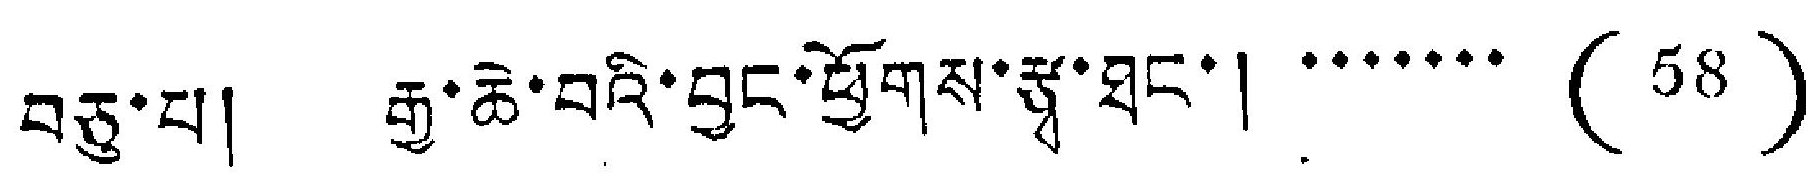བཅུ་པ། རྒྱ་ཆེ་བའི་བྱང་ཕྱོགས་རྩྭ་ཐང་། …… (58)
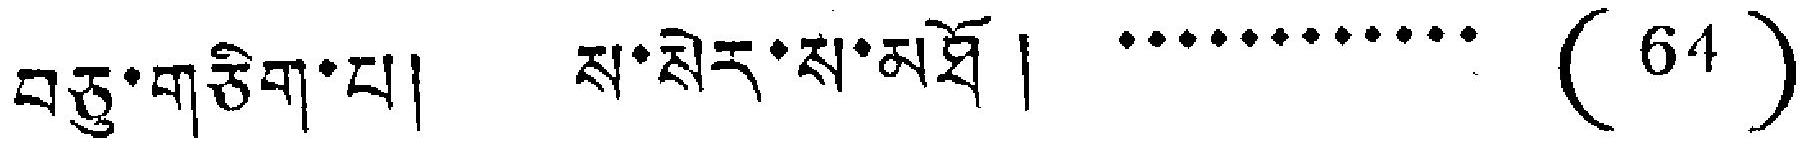བཅུ་གཅིག་པ། ས་སེར་ས་མཐོ། ………… (64)
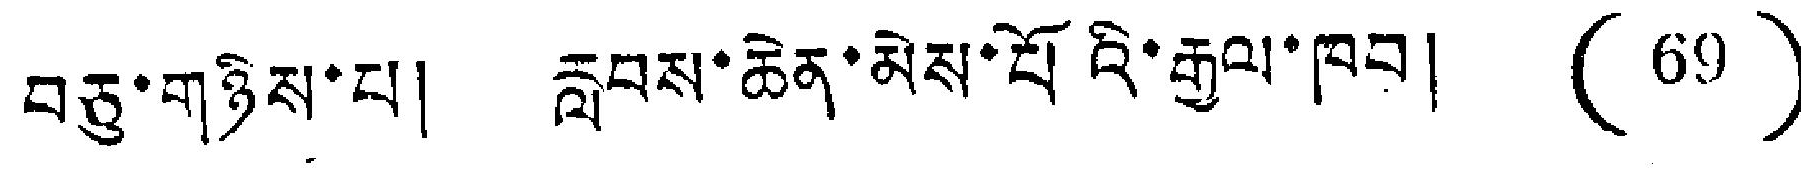བཅུ་གཉིས་པ། རླབས་ཆེན་མེས་པོའི་རྒྱལ་ཁབ། (69)
